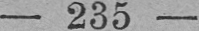— 235 —
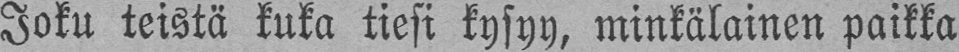Joku teistä kuka tiesi kysyy, minkälainen paikka
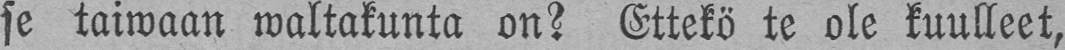se taiwaan waltakunta on? Ettekö te ole kuulleet,
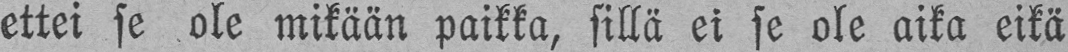ettei se ole mikään paikka, sillä ei se ole aika eikä
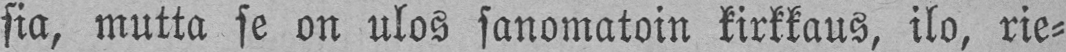sia, mutta se on ulos sanomatoin kirkkaus, ilo, rie-
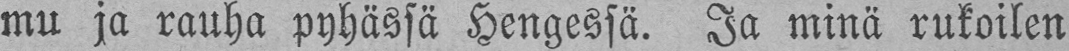mu ja rauha pyhässä Hengessä. Ja minä rukoilen
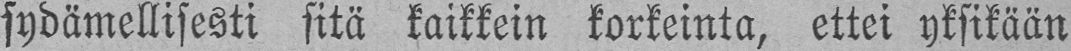sydämellisesti sitä kaikkein korkeinta, ettei yksikään
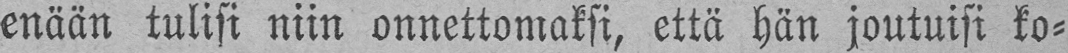enään tulisi niin onnettomaksi, että hän joutuisi ko-
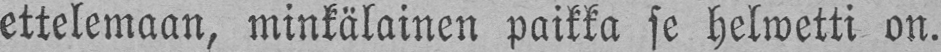ettelemaan, minkälainen paikka se helwetti on.
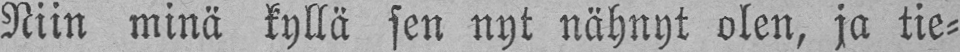Niin minä kyllä sen nyt nähnyt olen, ja tie-
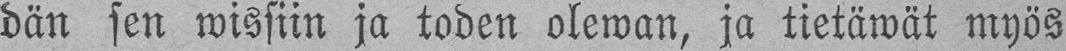dän sen wissiin ja toden olewan, ja tietäwät myös
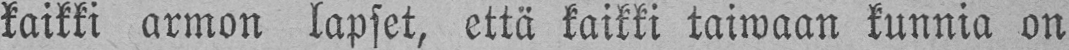kaikki armon lapset, että kaikki taiwaan kunnia on
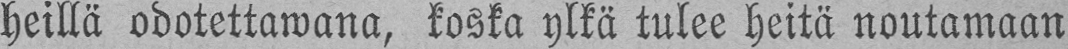heillä odotettawana, koska ylkä tulee heitä noutamaan
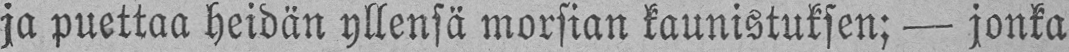ja puettaa heidän yllensä morsian kaunistuksen; — jonka
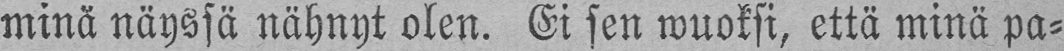minä näyssä nähnyt olen. Ei sen wuoksi, että minä pa-
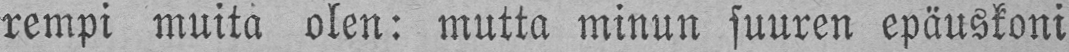rempi muita olen: mutta minun suuren epäuskoni
